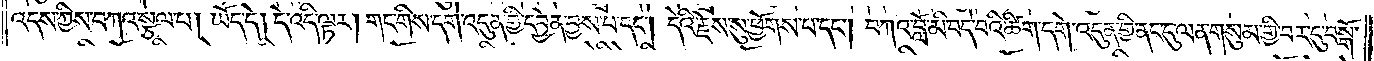འདས་ཀྱིས་བཀའ་སྩལ་པ། ཡོད་དེ། དེ་འདི་ལྟར། གང་གིས་དགེ་འདུན་གྱི་དབྱེན་བྱས་པ་དང༌། དེའི་རྗེས་སུ་ཕྱོགས་པ་དང༌། བཀའ་བློ་མི་བདེ་བའི་ཚིག་དགེ་འདུན་གྱི་ནང་དུ་ལན་གསུམ་གྱི་བར་དུ་བསྒོ་
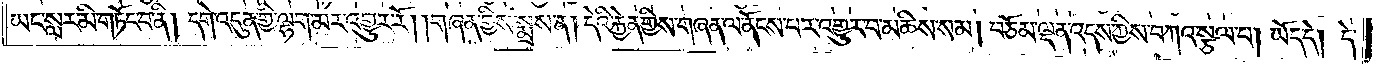ཡང་སླར་མི་གཏོང་བ་ནི། དགེ་འདུན་གྱི་ལྷག་མར་འགྱུར་རོ། །གཞན་གྱིས་སྨྲས་ན། དེའི་རྐྱེན་གྱིས་གཞན་ལ་ནོངས་པར་འགྱུར་བ་མཆིས་སམ། བཅོམ་ལྡན་འདས་ཀྱིས་བཀའ་སྩལ་པ། ཡོད་དེ། དེ་
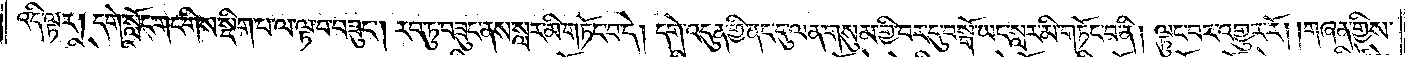འདི་ལྟར། དགེ་སློང་གང་གིས་སྡིག་པ་ལ་ལྟ་བ་བཟུང༌། རབ་ཏུ་བཟུང་ནས་སླར་མི་གཏོང་བ་དེ། དགེ་འདུན་གྱི་ནང་དུ་ལན་གསུམ་གྱི་བར་དུ་བསྒོ་ཡང་སླར་མི་གཏོང་བ་ནི། ལྟུང་བར་འགྱུར་རོ། །གཞན་གྱིས་
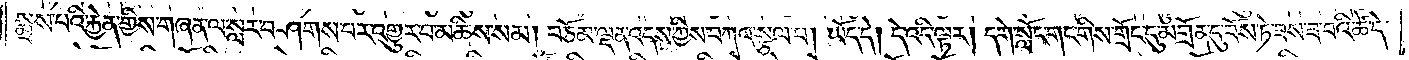སྨྲས་པའི་རྐྱེན་གྱིས་གཞན་ལ་སླར་བཤགས་པར་འགྱུར་བ་མཆིས་སམ། བཅོམ་ལྡན་འདས་ཀྱིས་བཀའ་སྩལ་པ། ཡོད་དེ། དེ་འདི་ལྟར། དགེ་སློང་གང་གིས་གྲོང་དུ་མགྲོན་དུ་བོས་ཏེ་ཟས་ཟ་བའི་ཚེ་དེ་
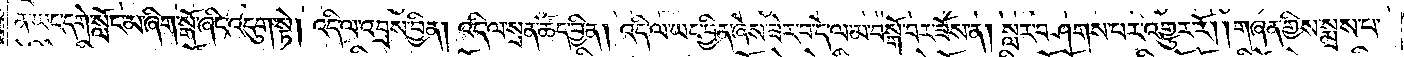ན་ཡང་དགེ་སློང་མ་ཞིག་སྒོ་ཞིང་འདུག་སྟེ། འདི་ལ་འབྲས་བྱིན། འདི་ལ་སྲན་ཚོད་བྱིན། འདི་ལ་ཡང་བྱིན་ཞེས་ཟེར་བ་དེ་ལ་མ་བསྒོ་བར་ཟོས་ན། སླར་བཤགས་པར་འགྱུར་རོ། །གཞན་གྱིས་སྨྲས་པ་
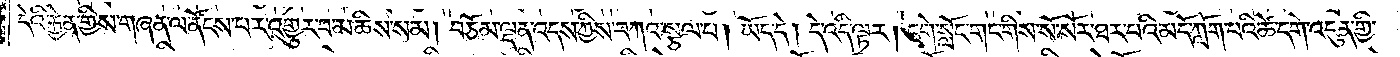དེའི་རྐྱེན་གྱིས་གཞན་ལ་ནོངས་པར་འགྱུར་བ་མཆིས་སམ། བཅོམ་ལྡན་འདས་ཀྱིས་བཀའ་སྩལ་པ། ཡོད་དེ། དེ་འདི་ལྟར། དགེ་སློང་གང་གིས་སོ་སོར་ཐར་པའི་མདོ་ཀློག་པའི་ཚེ་དགེ་འདུན་གྱི་
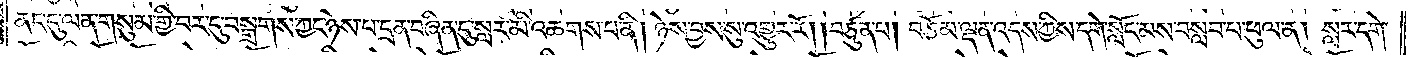ནང་དུ་ལན་གསུམ་གྱི་བར་དུ་བསྒྲགས་ཀྱང་ཉེས་པ་དྲན་བཞིན་དུ་སླར་མི་འཆགས་པ་ནི། ཉེས་བྱས་སུ་འགྱུར་རོ། །བཙུན་པ། བཅོམ་ལྡན་འདས་ཀྱིས་དགེ་སློང་མས་བསླབ་པ་ཕུལ་ན། སླར་དགེ་
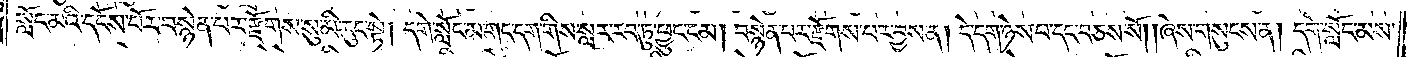སློང་མའི་དངོས་པོར་བསྙེན་པར་རྫོགས་སུ་མི་རུང་སྟེ། དགེ་སློང་མ་གང་དག་གིས་སླར་རབ་ཏུ་ཕྱུང་ངམ། བསྙེན་པར་རྫོགས་པར་བྱས་ན། དེ་དག་ཉེས་པ་དང་བཅས་སོ། །ཞེས་གསུངས་ན། དགེ་སློང་མས་
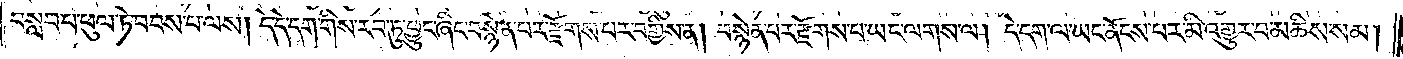བསླབ་པ་ཕུལ་ཏེ་བབས་པ་ལས། དེ་དེ་དག་གིས་རབ་ཏུ་ཕྱུང་ཞིང་བསྙེན་པར་རྫོགས་པར་བགྱིས་ན། བསྙེན་པར་རྫོགས་པ་ཡང་ལགས་ལ། དེ་དག་ལ་ཡང་ནོངས་པར་མི་འགྱུར་བ་མཆིས་སམ།
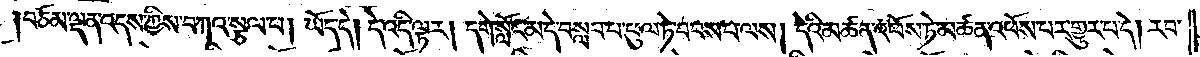བཅོམ་ལྡན་འདས་ཀྱིས་བཀའ་སྩལ་པ། ཡོད་དེ། དེ་འདི་ལྟར། དགེ་སློང་མ་དེ་བསླབ་པ་ཕུལ་ཏེ་བབས་པ་ལས། དེའི་མཚན་འཕོས་ཏེ་མཚན་འཕོས་པར་གྱུར་པ་དེ། རབ་
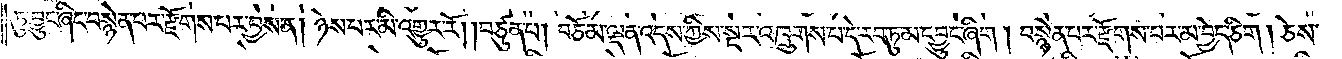ཏུ་བྱུང་ཞིང་བསྙེན་པར་རྫོགས་པར་བྱས་ན། ཉེས་པར་མི་འགྱུར་རོ། །བཙུན་པ། བཅོམ་ལྡན་འདས་ཀྱིས་སྔར་འཁྲུགས་པ་དེ་རབ་ཏུ་མ་དབྱུང་ཞིག །བསྙེན་པར་རྫོགས་པར་མ་བྱེད་ཅིག །ཅེས་
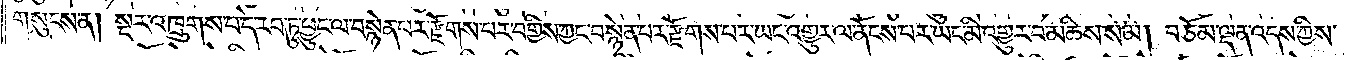གསུངས་ན། སྔར་འཁྲུགས་པ་དེ་རབ་ཏུ་ཕྱུང་ལ་བསྙེན་པར་རྫོགས་པར་བགྱིས་ཀྱང་བསྙེན་པར་རྫོགས་པར་ཡང་འགྱུར་ལ་ནོངས་པར་ཡང་མི་འགྱུར་བ་མཆིས་སམ། བཅོམ་ལྡན་འདས་ཀྱིས་
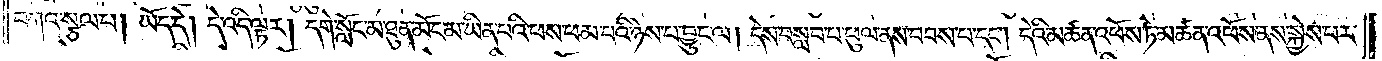བཀའ་སྩལ་པ། ཡོད་དེ། དེ་འདི་ལྟར། དགེ་སློང་མཐུན་མོང་མ་ཡིན་པའི་ཕས་ཕམ་པའི་ཉེས་པ་བྱུང་ལ། དེས་བསླབ་པ་ཕུལ་ནས་བབས་པ་དང༌། དེའི་མཚན་འཕོས་ཏེ་མཚན་འཕོས་ནས་སྐྱེས་པར་
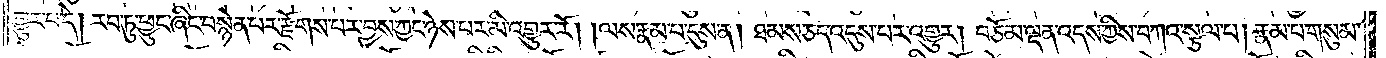གྱུར་པ་དེ། རབ་ཏུ་ཕྱུང་ཞིང་བསྙེན་པར་རྫོགས་པར་བྱས་ཀྱང་ཉེས་པར་མི་འགྱུར་རོ། །ལས་རྣམ་པ་དུས་ན། ཐམས་ཅད་འདུས་པར་འགྱུར། བཅོམ་ལྡན་འདས་ཀྱིས་བཀའ་སྩལ་པ། རྣམ་པ་གསུམ་
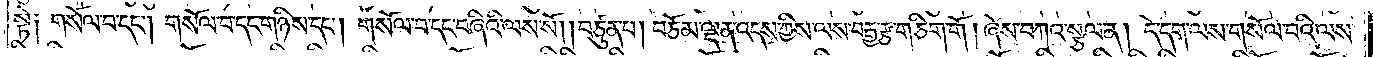སྟེ། གསོལ་བ་དང༌། གསོལ་བ་དང་གཉིས་དང༌། གསོལ་བ་དང་བཞིའི་ལས་སོ། །བཙུན་པ། བཅོམ་ལྡན་འདས་ཀྱིས་ལས་བརྒྱ་རྩ་གཅིག་གོ །ཞེས་བཀའ་སྩལ་ན། དེ་དག་ལས་གསོལ་བའི་ལས་
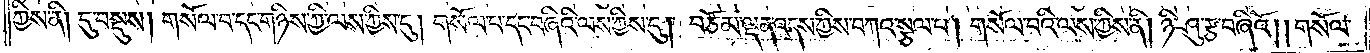ཀྱིས་ནི། དུ་བསྡུས། གསོལ་བ་དང་གཉིས་ཀྱི་ལས་ཀྱིས་དུ། གསོལ་པ་དང་བཞིའི་ལས་ཀྱིས་དུ། བཅོམ་ལྡན་འདས་ཀྱིས་བཀའ་སྩལ་པ། གསོལ་བའི་ལས་ཀྱིས་ནི། ཉི་ཤུ་རྩ་བཞིའོ། །གསོལ་
